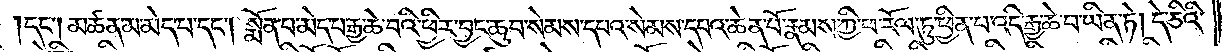དང༌། མཚན་མ་མེད་པ་དང༌། སྨོན་པ་མེད་པ་རྒྱ་ཆེ་བའི་ཕྱིར་བྱང་ཆུབ་སེམས་དཔའ་སེམས་དཔའ་ཆེན་པོ་རྣམས་ཀྱི་ཕ་རོལ་ཏུ་ཕྱིན་པ་འདི་རྒྱ་ཆེ་བ་ཡིན་ཏེ། དེ་ཅིའི་
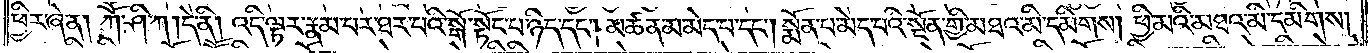ཕྱིར་ཞེ་ན། ཀཽ་ཤི་ཀ། དེ་ནི། འདི་ལྟར་རྣམ་པར་ཐར་པའི་སྒོ་སྟོང་པ་ཉིད་དང༌། མཚན་མ་མེད་པ་དང༌། སྨོན་པ་མེད་པའི་སྔོན་གྱི་མཐའ་མི་དམིགས། ཕྱི་མའི་མཐའ་མི་དམིགས།
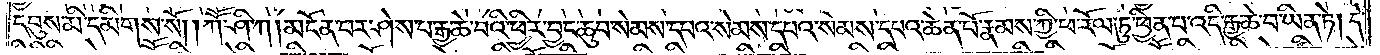དབུས་མི་དམིགས་སོ། །ཀཽ་ཤི་ཀ། མངོན་པར་ཤེས་པ་རྒྱ་ཆེ་བའི་ཕྱིར་བྱང་ཆུབ་སེམས་དཔའ་སེམས་དཔའ་ཆེན་པོ་རྣམས་ཀྱི་ཕ་རོལ་ཏུ་ཕྱིན་པ་འདི་རྒྱ་ཆེ་བ་ཡིན་ཏེ། དེ་
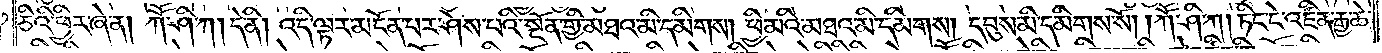ཅིའི་ཕྱིར་ཞེ་ན། ཀཽ་ཤི་ཀ། དེ་ནི། འདི་ལྟར་མངོན་པར་ཤེས་པའི་སྔོན་གྱི་མཐའ་མི་དམིགས་ཕྱི་མའི་མཐའ་མི་དམིགས། དབུས་མི་དམིགས་སོ། །ཀཽ་ཤི་ཀ། ཏིང་ངེ་འཛིན་རྒྱ་ཆེ་
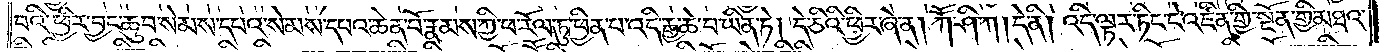བའི་ཕྱིར་བྱང་ཆུབ་སེམས་དཔའ་སེམས་དཔའ་ཆེན་པོ་རྣམས་ཀྱི་ཕ་རོལ་ཏུ་ཕྱིན་པ་འདི་རྒྱ་ཆེ་བ་ཡིན་ཏེ། དེ་ཅིའི་ཕྱིར་ཞེ་ན། ཀཽ་ཤི་ཀ། དེ་ནི། འདི་ལྟར་ཏིང་ངེ་འཛིན་གྱི་སྔོན་གྱི་མཐའ་
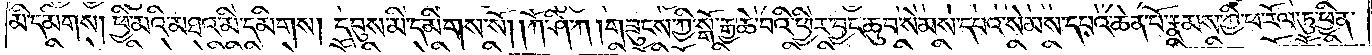མི་དམིགས། ཕྱི་མའི་མཐའ་མི་དམིགས། དབུས་མི་དམིགས་སོ། །ཀཽ་ཤི་ཀ། གཟུངས་ཀྱི་སྒོ་རྒྱ་ཆེ་བའི་ཕྱིར་བྱང་ཆུབ་སེམས་དཔའ་སེམས་དཔའ་ཆེན་པོ་རྣམས་ཀྱི་ཕ་རོལ་ཏུ་ཕྱིན་
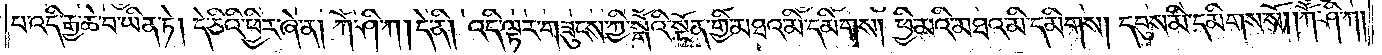པ་འདི་རྒྱ་ཆེ་བ་ཡིན་ཏེ། དེ་ཅིའི་ཕྱིར་ཞེ་ན། ཀཽ་ཤི་ཀ། དེ་ནི། འདི་ལྟར་གཟུངས་ཀྱི་སྒོའི་སྔོན་གྱི་མཐའ་མི་དམིགས། ཕྱི་མའི་མཐའ་མི་དམིགས། དབུས་མི་དམིགས་སོ། །ཀཽ་ཤི་ཀ།
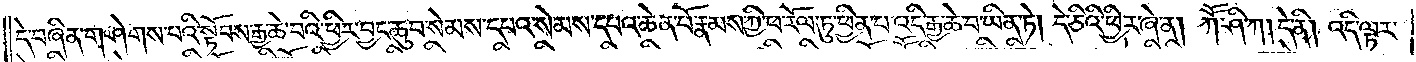དེ་བཞིན་གཤེགས་པའི་སྟོབས་རྒྱ་ཆེ་བའི་ཕྱིར་བྱང་ཆུབ་སེམས་དཔའ་སེམས་དཔའ་ཆེན་པོ་རྣམས་ཀྱི་ཕ་རོལ་ཏུ་ཕྱིན་པ་འདི་རྒྱ་ཆེ་བ་ཡིན་ཏེ། དེ་ཅིའི་ཕྱིར་ཞེ་ན། ཀཽ་ཤི་ཀ། དེ་ནི། འདི་ལྟར་
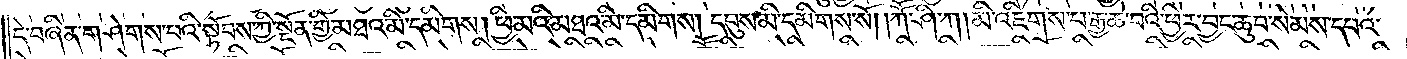དེ་བཞིན་གཤེགས་པའི་སྟོབས་ཀྱི་སྔོན་གྱི་མཐའ་མི་དམིགས། ཕྱི་མའི་མཐའ་མི་དམིགས། དབུས་མི་དམིགས་སོ། །ཀཽ་ཤི་ཀ། མི་འཇིགས་པ་རྒྱ་ཆེ་བའི་ཕྱིར་བྱང་ཆུབ་སེམས་དཔའ་
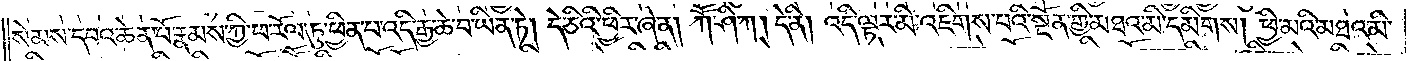སེམས་དཔའ་ཆེན་པོ་རྣམས་ཀྱི་ཕ་རོལ་ཏུ་ཕྱིན་པ་འདི་རྒྱ་ཆེ་བ་ཡིན་ཏེ། དེ་ཅིའི་ཕྱིར་ཞེ་ན། ཀཽ་ཤི་ཀ། དེ་ནི། འདི་ལྟར་མི་འཇིགས་པའི་སྔོན་གྱི་མཐའ་མི་དམིགས། ཕྱི་མའི་མཐའ་མི་
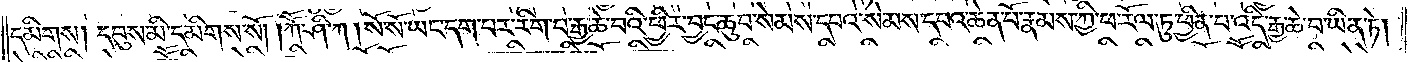དམིགས། དབུས་མི་དམིགས་སོ། །ཀཽ་ཤི་ཀ། སོ་སོ་ཡང་དག་པར་རིག་པ་རྒྱ་ཆེ་བའི་ཕྱིར་བྱང་ཆུབ་སེམས་དཔའ་སེམས་དཔའ་ཆེན་པོ་རྣམས་ཀྱི་ཕ་རོལ་ཏུ་ཕྱིན་པ་འདི་རྒྱ་ཆེ་བ་ཡིན་ཏེ།
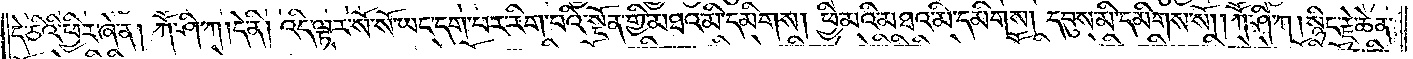དེ་ཅིའི་ཕྱིར་ཞེ་ན། ཀཽ་ཤི་ཀ། དེ་ནི། འདི་ལྟར་སོ་སོ་ཡང་དག་པར་རིག་པའི་སྔོན་གྱི་མཐའ་མི་དམིགས། ཕྱི་མའི་མཐའ་མི་དམིགས། དབུས་མི་དམིགས་སོ། །ཀཽ་ཤི་ཀ། སྙིང་རྗེ་ཆེན་
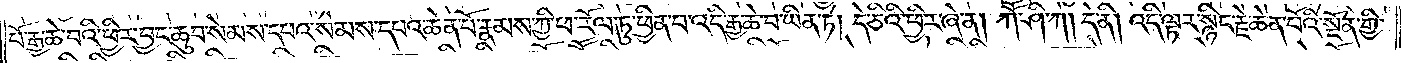པོ་རྒྱ་ཆེ་བའི་ཕྱིར་བྱང་ཆུབ་སེམས་དཔའ་སེམས་དཔའ་ཆེན་པོ་རྣམས་ཀྱི་ཕ་རོལ་ཏུ་ཕྱིན་པ་འདི་རྒྱ་ཆེ་བ་ཡིན་ཏེ། དེ་ཅིའི་ཕྱིར་ཞེ་ན། ཀཽ་ཤི་ཀ། དེ་ནི། འདི་ལྟར་སྙིང་རྗེ་ཆེན་པོའི་སྔོན་གྱི་
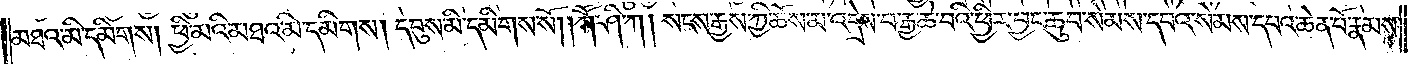མཐའ་མི་དམིགས། ཕྱི་མའི་མཐའ་མི་དམིགས། དབུས་མི་དམིགས་སོ། །ཀཽ་ཤི་ཀ། སངས་རྒྱས་ཀྱི་ཆོས་མ་འདྲེས་པ་རྒྱ་ཆེ་བའི་ཕྱིར་བྱང་ཆུབ་སེམས་དཔའ་སེམས་དཔའ་ཆེན་པོ་རྣམས་
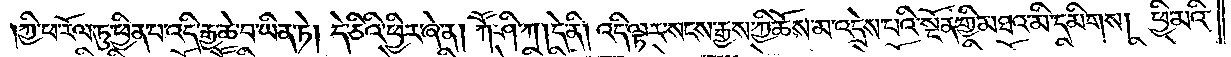ཀྱི་ཕ་རོལ་ཏུ་ཕྱིན་པ་འདི་རྒྱ་ཆེ་བ་ཡིན་ཏེ། དེ་ཅིའི་ཕྱིར་ཞེ་ན། ཀཽ་ཤི་ཀ། དེ་ནི། འདི་ལྟར་སངས་རྒྱས་ཀྱི་ཆོས་མ་འདྲེས་པའི་སྔོན་གྱི་མཐའ་མི་དམིགས། ཕྱི་མའི་
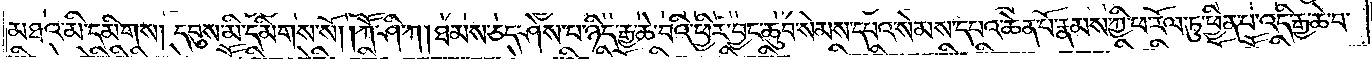མཐའ་མི་དམིགས། དབུས་མི་དམིགས་སོ། །ཀཽ་ཤི་ཀ། ཐམས་ཅད་ཤེས་པ་ཉིད་རྒྱ་ཆེ་བའི་ཕྱིར་བྱང་ཆུབ་སེམས་དཔའ་སེམས་དཔའ་ཆེན་པོ་རྣམས་ཀྱི་ཕ་རོལ་ཏུ་ཕྱིན་པ་འདི་རྒྱ་ཆེ་བ་
